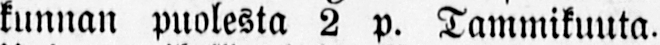kunnan puolesta 2 p. Tammikuuta.
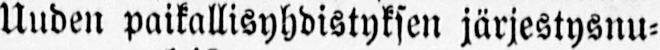Uuden paikallisyhdistyksen järjestysnu-
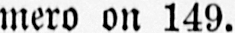mero on 149.
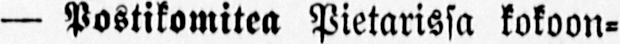— Postikomitea Pietarissa kokoon-
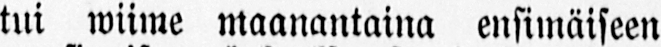tui wiime maanantaina ensimäiseen
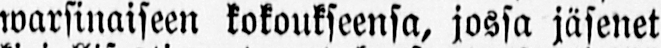warsinaiseen kokoukseensa, jossa jäsenet
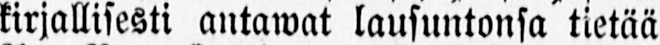kirjallisesti antawat lausuntonsa tietää
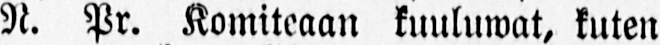N. Pr. Komiteaan kuuluwat, kuten
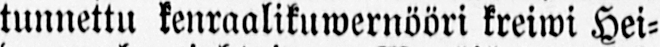tunnettu kenraalikuwernööri kreiwi Hei-
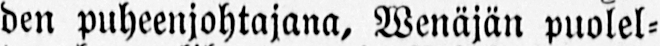den puheenjohtajana, Wenäjän puolel-
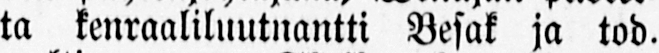ta kenraaliluutnantti Besak ja tod.
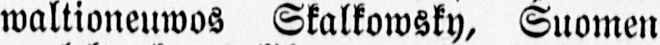waltioneuwos Skalkowsky, Suomen
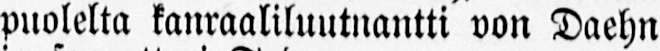puolelta kanraaliluutnantti von Daehn
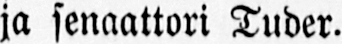ja senaattori Tuder.
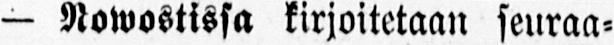— Nowostissa kirjoitetaan seuraa-
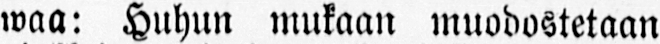waa: Huhun mukaan muodostetaan
